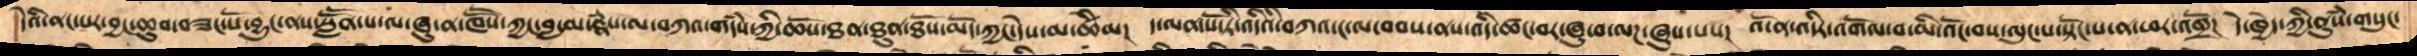དེའི་ནང་པར་བྱང་ཆུབ་བཟང་པོ་བྱུང་ནས་སླཽན་པ་ལ་ཞུ་ན་ཁཽས་ཀྱང་བླ་མ་རྣཾས་མ་བཀའ་གདཾས་ཀྱི་ཆོས་ཐན་ཐུན་ཐོས་མོད་ཀྱང་དེས་མ་ཚིམ།  ད་ལན་སོ་ཏི་འདིའི་བཀའ་ང་ལ་བབས་ནས་འདི་ཚང་བར་ཞུ་བ་ལཌ་ཞུས་པས།  འོ་ན་འདིར་འགོལ་བ་མི་འོང་བས་ལུང་པ་སྟོང་པ་ན་ཕར་འགྲོ།  དེ་ཁྱེད་ཀྱི་ནུསཾ་གསུང་
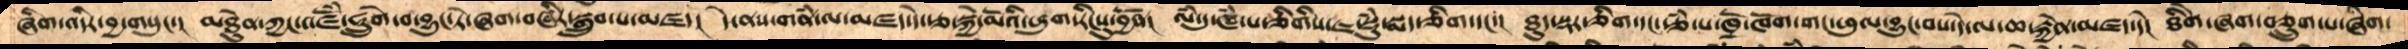ཞིག་འདིར་བྱ་གསུང་།  མཐེུན་ཀྱང་འཛོཾ་ཧྲེུག་བ་བྱུང་ཏེ་ཞག་བཞིར་སྒྲུབ་པ་མཛད།  དེ་ནས་གནཾ་ལ་མཛད་དེ་རྩ་སྐྱེ་མོའི་ཕུག་རིངསུ་བྱོན།  ལཾ་དུ་ཝཾ་པ་ཅིགིས་ཇ་སྡུཾ་སྨད་ཅིག་དང་།  ཐུད་སྡར་ཅིག་དང་རྩཾ་པ་ཁྲོ་ཁོག་གང་ཕུལ་བྱུང་བས་དེ་ལ་ཆ་རྐྱེན་མཛད་དེ།  ཐིགེ་ཞག་བཅྲུག་པ་ཞིག་
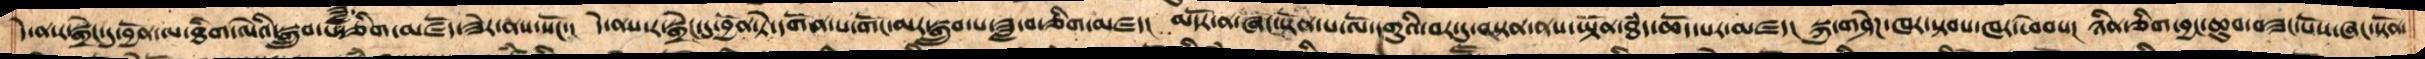དེ་ནས་ར་སྒྲེང་དུ་བྱོན་ལ་ཐིག་ལེའི་སྒྲུབ་པ་ཟླ་ཅིག་ཏུ་མཛོད་ཟེར་ནས་སོང་། དེ་ནས་ར་སྒྲེང་དུ་བྱོན་ཏེ་དགོན་པ་གོང་མར་སྒྲུབ་པ་ཟླ་བ་ཅིག་མཛད། མདོར་ན་ཞང་སྟོན་པ་ལོ་དགུའི་བར་དུ་བསྟན་ནས་ཡྟོན་ཐཾད་ཆོད་པར་མཛད། སྐུ་གཤེཌ་ཁར་སྟབས་ཁར་ཕེབས། ཉིན་ཅིག་བྱང་ཆུབ་བཟང་པོས་ཞང་སྟོན་
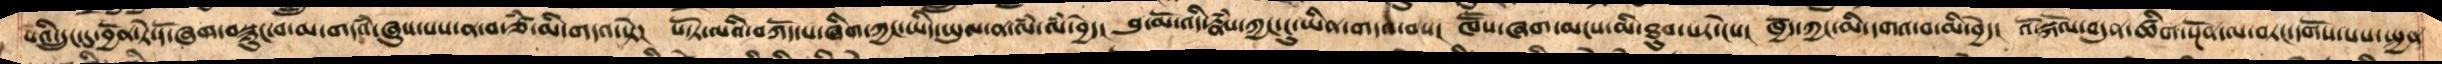པའི་དྲུང་དུ་བྱོན་ཏེ་དོ་ཞག་བསྙུང་བ་མ་གདའཾ་ཞུས་པས་ན་བ་ཙཾ་མི་གདའ་སྟེ།  པོ་ཏ་ལའི་བཀོད་པ་ཞིག་ཀྱང་ཡིད་ཡུལ་ན་ལཾ་ལཾ་བྱེད།  བུ་མོ་འདི་རྣཾས་ཀྱང་ངུ་ཡིན་གདའ་བས།  ཁཽས་ཞག་མངས་མི་ཐུབ་པར་ངེས།  ཁྱོད་ཀྱང་མི་དགའ་བ་མ་བྱེད།  འོ་སྐོལ་བདུན་ཚིག་སྔོན་ལ་བརང་དགོས་པས་སྤྱན
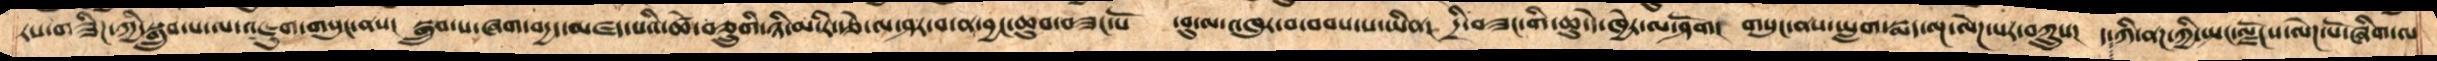རས་གཟིཌ་ཀྱི་སྒྲུབ་པ་ལ་འཇུག་གསུང་ནས།  སྒྲུབ་པ་ཞག་བདྱད་མཛད་པའི་ཚེས་བཅྲུགི་ཉི་མ་རི་རྩེ་ལ་ཤར་བ་ན་བྱང་ཆུབ་བཟང་པོ།  དབུ་ལ་འཁུར་བ་འབབ་པ་ཡིན།  དྲི་བཟང་གི་ཆུ་དེ་ཁྱེར་ལ་ཤོག།  གསུང་ནས་ཡླག་སྨད་ལྔ་ལེཌ་པར་བཀྲུས།  ད་ཀི་ནཌ་ཀྱི་སྤང་ལྗོངས་ལེཌ་པོ་ཞིག་ལ
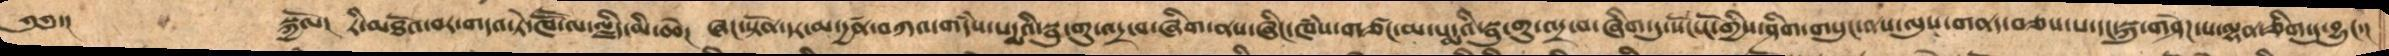༄༅་།    སྐྱོལ།  རི་མཐོ་བར་གདའ་ཏེ་ཁཽ་ལ་ལྗིད་མི་ཆེ།  ཞང་སྟོན་དར་མ་དྱཚན་བཀའ་གདཾས་པདྨའི་སྦུ་གུ་འདྲ་བ་ཞིག་ནས་ཞིང་ཁཾས་གཙང་མ་པདྨའི་སྦུ་གུ་འདྲ་བ་ཞིག་དུ་སོང་ངོ་གྱིས་ཤིག་གསུང་ནས་ལུས་གནད་བཅས་པ་དང་སྐུ་གཤེཌ་པ་ལྷན་ཅིག་དུ་བྱུང་།
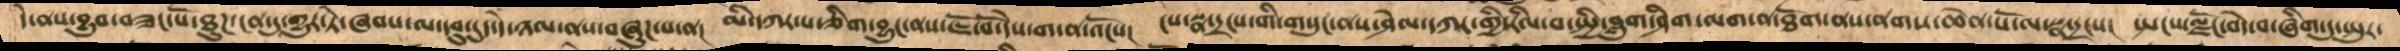དེ་ནས་བྱུབ་བཟང་པོ་ཐུཌ་ངན་དུ་གྱུར་ཏེ་ཞབས་ལ་དབུ་དུད་དེ་ཉལ་ནས་བཞུཌ་པ་ན།  མི་དཀར་པ་ཅིག་བྱུང་ནས་ཇོ་བོ་དེས་ག་ན་འོངས།  ངས་སྣ་དྲངས་གི་གསུང་ནས་ཤེལ་དཀར་གྱི་རིལ་བ་སྤྱི་བླུག་ཤིག་ལག་ན་ཐོག་ནས་ནགས་ཆེན་པོ་ལ་སྣ་དྲངས།   སྤངས་ལྗོང་བདེ་བ་ཞིག་དུ་སྤུར་
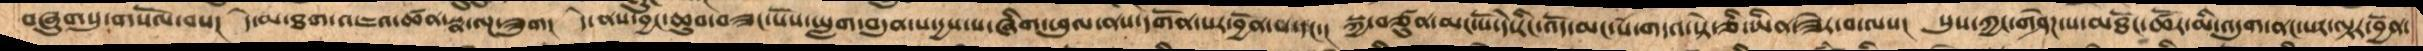བཞུགསུ་གསོལ་བས།  དེ་མ་ཐག་འཇའ་ཚན་སྣ་ལྔ་ཟུག།  དེ་ནས་བྱང་ཆུབ་བཟང་པོས་ཡླག་བདུན་པ་དྱས་པ་ཞིག་ཕུལ་ནས་དགོན་པར་བྱོན་པ་དང་།  སྐྱ་བཙུན་མང་པོ་དེ་རིང་འོད་མང་པོ་གདའ་སྟེ་ཅི་ཡིན་ཟེར་བ་ལས།  སུས་ཀྱང་གཤེཌ་པ་མཐོང་ཚོར་མི་འདུག་ནང་པར་ལྟར་བྱོན་
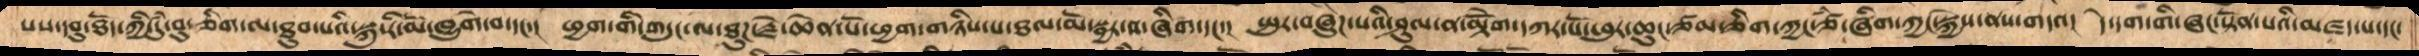པས་དབུ་ཐོད་ཀྱི་དུཾ་བུ་ཅིག་ལ་ཐུབ་པའི་སྐུ་རི་མོ་ཁྱུགེ་བ་དང་།  ཕྱག་གི་གདུང་ལ་ཐུཌ་རྗེ་ཆེན་པོ་ཕྱག་གཉིས་པ་ཐལ་མོ་སྦྱར་བ་ཞིག་དང་།  སྤུར་བཞུཌ་པའི་ཤུལ་ན་མྟེགོ་དཀར་པོ་ཕུར་ཆུང་ཙཾ་ཅིག་ཀྱང་ཙཾ་ཞིག་ཀྱང་སྐྱེས་ནས་གདའ།  དེ་དག་གི་ཞང་སྟོན་པའི་མཛད་པ་དང་
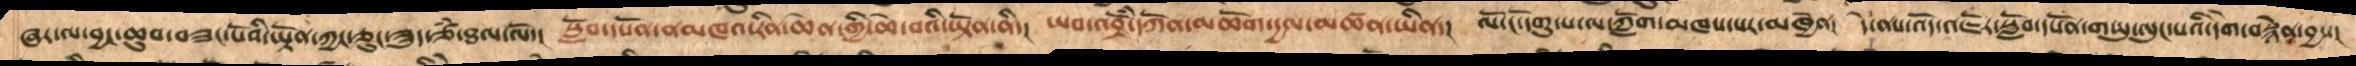ཞར་ལ་བྱང་ཆུབ་བཟང་པོའི་ཡྟོན་ཀྱང་ཅུང་ཟུད་ཙཾ་ཐལ་ལོ་།  སློབ་དཔོན་ནམཁའ་རིན་ཆེན་གྱི་ཆེ་བའི་ཡྟོན་ནི་།  ཡབ་འབྲོཾ་དཀོན་མཆོག་དྱལ་མཚན་ཡིན་།  ལོ་ངོ་དགུ་པ་ལ་ཀློག་མཁས་པར་མཁྱེན།  དེ་ནས་འདོ་འཇོར་སློན་དཔོན་གཡུ་ལུང་པའི་དགེ་བསྙེན་བྱས།
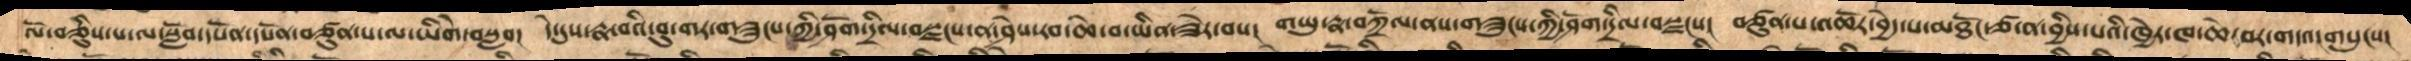ལོ་བཅིུས་པ་ལ་སློབ་དཔོན་དཔོན་བཙུན་པ་ལ་ཡིགེ་བསླབ།  དེ་དུས་རྣ་བའི་བུ་གར་གཟུངས་ཀྱི་ཤོག་དྲིལ་བསྫངས་ན་ཤེས་རབ་ཆེ་བ་ཡིན་ཟེར་བས།  གཡུ་རྣ་བཀྲྲོལ་ནས་གཟུངས་ཀྱི་ཤོག་དྲིལ་བསྫངས།  བཙུན་པ་འཆོར་བྱེད་པ་མཐོང་ཙ་ན་བྱིས་པའི་ཁྱེར་ཁ་ཆེ་བར་གདའ་གསུངས།
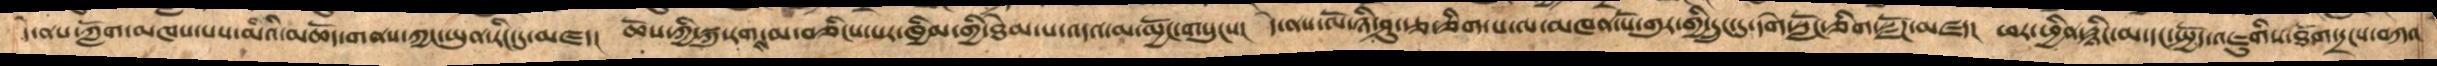དེ་ནས་ཀློག་མཁས་པས་མིའི་མཆོད་གནས་ཀྱང་ཡུན་རིང་དུ་མཛད། ཆོས་ཀྱི་སྐུ་རགས་མ་བཅིངས་པར་ཁྱིམ་གྱི་ཐེམ་པ་འདའ་མ་མྱོང་གསུངས། དེ་ནས་ལོ་ཉི་ཤུ་རྩ་ཅིག་པ་ལ་མཁན་པོ་གུར་གྱི་དྲུང་དུ་དགེ་སློང་ཅིག་སྫོཌ་མཛད། ཕར་ཕྱིན་རྙིང་མ་དང་སྤྱོད་འཇུགིས་ཐོག་དྲངས་བཀའ་
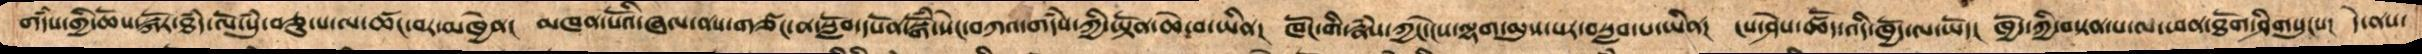གདཾས་གྱི་ཆོས་སྐོར་ཐཾད་ལོ་སུཾ་བཅུ་པ་ལ་ཚང་བར་མཁྱེན།  མཁན་པོའི་ཞལ་ནས་གཙང་ན་སློབ་དཔོན་སྒོཾ་སེང་བཀའ་གདཾས་ཀྱི་ཡྟོན་ཆེ་བ་ཡིན།  ཁོང་གི་རྣཾས་ཀྱང་ངེས་ལྷག་མུས་པར་བསླབ་པ་ཡིན།  ངས་ཤེས་ཚོད་འདི་ཁྱོད་ལ་ཡོད།  ཁྱོད་ཀྱི་བསྟན་པ་ལ་ཕན་ཐོག་ཤིགསུངས།  དེ་ནས་
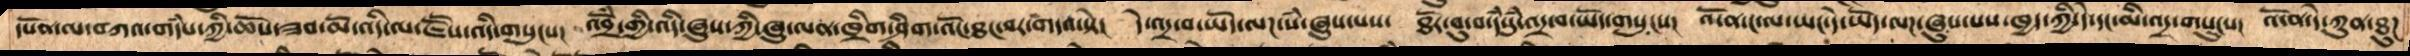དཔོན་ལ་བཀའ་གདཾས་ཀྱི་ཆོས་ཟབ་མོ་འདི་ལ་ཇཽས་འདི་གསུངས།  འབྲོཾ་གྱི་འདི་ཞུས་ཀྱི་ཁུ་ལན་ཁྲིག་ཤིག་འོང་ཐང་བར་གདའ་སྟེ།  དེ་འདྲ་བ་ཡོད་ལཌ་སཾ་ཞུས་པས་  ཐོར་བུ་བ་དཾསུཾ་འདྲ་བ་ཡོད་གསུངས་  འདོན་ང་ལ་ཡང་དེ་ཡོད་ལཌ་ཞུས་པས་ཁྱད་ཀྱི་དེ་དང་མི་འདྲ་གསུངས།  འདོན་དེ་ཀུན་ཐུཌ
